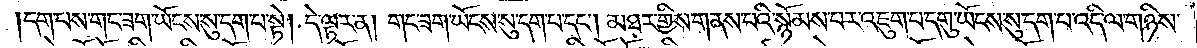དག་པས་གང་ཟག་ཡོངས་སུ་དག་པ་སྟེ། དེ་ལྟར་ན། གང་ཟག་ཡོངས་སུ་དག་པ་དང༌། མཐར་གྱིས་གནས་པའི་སྙོམས་པར་འཇུག་པ་དགུ་ཡོངས་སུ་དག་པ་འདི་ལ་གཉིས་
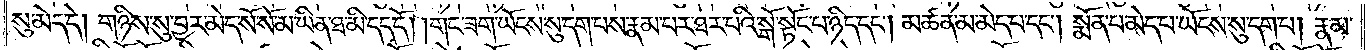སུ་མེད་དེ། གཉིས་སུ་བྱར་མེད་སོ་སོ་མ་ཡིན་ཐ་མི་དད་དོ། །གང་ཟག་ཡོངས་སུ་དག་པས་རྣམ་པར་ཐར་པའི་སྒོ་སྟོང་པ་ཉིད་དང༌། མཚན་མ་མེད་པ་དང༌། སྨོན་པ་མེད་པ་ཡོངས་སུ་དག་པ། རྣམ་
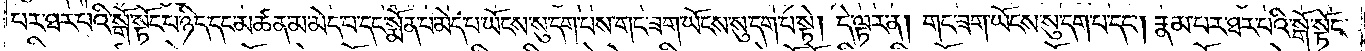པར་ཐར་པའི་སྒོ་སྟོང་པ་ཉིད་དང་མཚན་མ་མེད་པ་དང་སྨོན་པ་མེད་པ་ཡོངས་སུ་དག་པས་གང་ཟག་ཡོངས་སུ་དག་པ་སྟེ། དེ་ལྟར་ན། གང་ཟག་ཡོངས་སུ་དག་པ་དང༌། རྣམ་པར་ཐར་པའི་སྒོ་སྟོང་
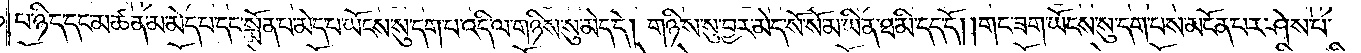པ་ཉིད་དང་མཚན་མ་མེད་པ་དང་སྨོན་པ་མེད་པ་ཡོངས་སུ་དག་པ་འདི་ལ་གཉིས་སུ་མེད་དེ། གཉིས་སུ་བྱར་མེད་སོ་སོ་མ་ཡིན་ཐ་མི་དད་དོ། །གང་ཟག་ཡོངས་སུ་དག་པས་མངོན་པར་ཤེས་པ་
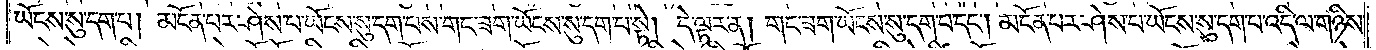ཡོངས་སུ་དག་པ། མངོན་པར་ཤེས་པ་ཡོངས་སུ་དག་པས་གང་ཟག་ཡོངས་སུ་དག་པ་སྟེ། དེ་ལྟར་ན། གང་ཟག་ཡོངས་སུ་དག་པ་དང༌། མངོན་པར་ཤེས་པ་ཡོངས་སུ་དག་པ་འདི་ལ་གཉིས་
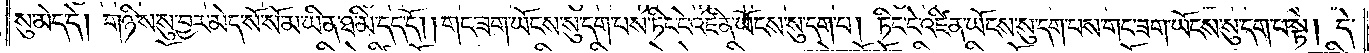སུ་མེད་དེ། གཉིས་སུ་བྱར་མེད་སོ་སོ་མ་ཡིན་ཐ་མི་དད་དོ། །གང་ཟག་ཡོངས་སུ་དག་པས་ཏིང་ངེ་འཛིན་ཡོངས་སུ་དག་པ། ཏིང་ངེ་འཛིན་ཡོངས་སུ་དག་པས་གང་ཟག་ཡོངས་སུ་དག་པ་སྟེ། དེ་
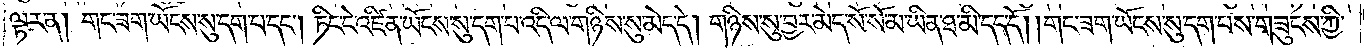ལྟར་ན། གང་ཟག་ཡོངས་སུ་དག་པ་དང༌། ཏིང་ངེ་འཛིན་ཡོངས་སུ་དག་པ་འདི་ལ་གཉིས་སུ་མེད་དེ། གཉིས་སུ་བྱར་མེད་སོ་སོ་མ་ཡིན་ཐ་མི་དད་དོ། །གང་ཟག་ཡོངས་སུ་དག་པས་གཟུངས་ཀྱི་
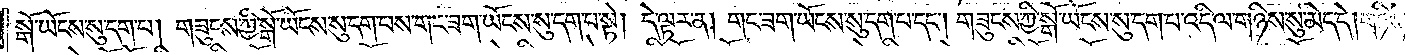སྒོ་ཡོངས་སུ་དག་པ། གཟུངས་ཀྱི་སྒོ་ཡོངས་སུ་དག་པས་གང་ཟག་ཡོངས་སུ་དག་པ་སྟེ། དེ་ལྟར་ན། གང་ཟག་ཡོངས་སུ་དག་པ་དང༌། གཟུངས་ཀྱི་སྒོ་ཡོངས་སུ་དག་པ་འདི་ལ་གཉིས་སུ་མེད་དེ། གཉིས་
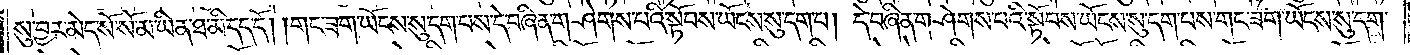སུ་བྱར་མེད་སོ་སོ་མ་ཡིན་ཐ་མི་དད་དོ། །གང་ཟག་ཡོངས་སུ་དག་པས་དེ་བཞིན་གཤེགས་པའི་སྟོབས་ཡོངས་སུ་དག་པ། དེ་བཞིན་གཤེགས་པའི་སྟོབས་ཡོངས་སུ་དག་པས་གང་ཟག་ཡོངས་སུ་དག་
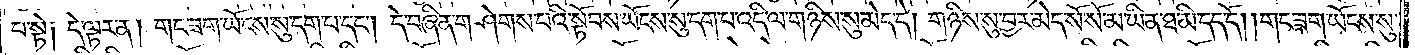པ་སྟེ༑ དེ་ལྟར་ན། གང་ཟག་ཡོངས་སུ་དག་པ་དང༌། དེ་བཞིན་གཤེགས་པའི་སྟོབས་ཡོངས་སུ་དག་པ་འདི་ལ་གཉིས་སུ་མེད་དེ། གཉིས་སུ་བྱར་མེད་སོ་སོ་མ་ཡིན་ཐ་མི་དད་དོ། །གང་ཟག་ཡོངས་སུ་
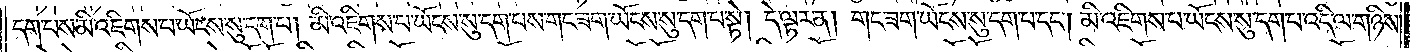དག་པས་མི་འཇིགས་པ་ཡོངས་སུ་དག་པ། མི་འཇིགས་པ་ཡོངས་སུ་དག་པས་གང་ཟག་ཡོངས་སུ་དག་པ་སྟེ། དེ་ལྟར་ན། གང་ཟག་ཡོངས་སུ་དག་པ་དང༌། མི་འཇིགས་པ་ཡོངས་སུ་དག་པ་འདི་ལ་གཉིས་
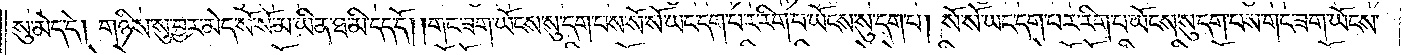སུ་མེད་དེ། གཉིས་སུ་བྱར་མེད་སོ་སོ་མ་ཡིན་ཐ་མི་དད་དོ། །གང་ཟག་ཡོངས་སུ་དག་པས་སོ་སོ་ཡང་དག་པར་རིག་པ་ཡོངས་སུ་དག་པ། སོ་སོ་ཡང་དག་པར་རིག་པ་ཡོངས་སུ་དག་པས་གང་ཟག་ཡོངས་
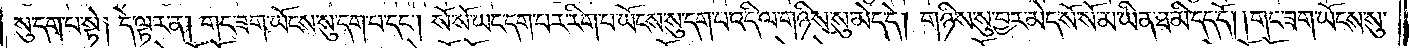སུ་དག་པ་སྟེ། དེ་ལྟར་ན། གང་ཟག་ཡོངས་སུ་དག་པ་དང༌། སོ་སོ་ཡང་དག་པར་རིག་པ་ཡོངས་སུ་དག་པ་འདི་ལ་གཉིས་སུ་མེད་དེ། གཉིས་སུ་བྱར་མེད་སོ་སོ་མ་ཡིན་ཐ་མི་དད་དོ། །གང་ཟག་ཡོངས་སུ་
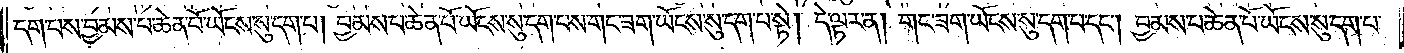དག་པས་བྱམས་པ་ཆེན་པོ་ཡོངས་སུ་དག་པ། བྱམས་པ་ཆེན་པོ་ཡོངས་སུ་དག་པས་གང་ཟག་ཡོངས་སུ་དག་པ་སྟེ། དེ་ལྟར་ན། གང་ཟག་ཡོངས་སུ་དག་པ་དང༌། བྱམས་པ་ཆེན་པོ་ཡོངས་སུ་དག་པ་
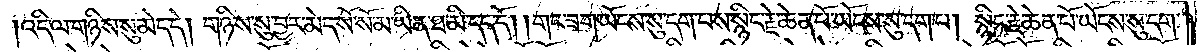འདི་ལ་གཉིས་སུ་མེད་དེ། གཉིས་སུ་བྱར་མེད་སོ་སོ་མ་ཡིན་ཐ་མི་དད་དོ། །གང་ཟག་ཡོངས་སུ་དག་པས་སྙིང་རྗེ་ཆེན་པོ་ཡོངས་སུ་དག་པ། སྙིང་ཆེན་པོ་ཡོངས་སུ་དག་
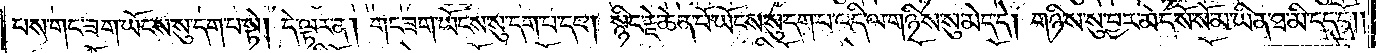པས་གང་ཟག་ཡོངས་སུ་དག་པ་སྟེ། དེ་ལྟར་ན། གང་ཟག་ཡོངས་སུ་དག་པ་དང༌། སྙིང་རྗེ་ཆེན་པོ་ཡོངས་སུ་དག་པ་འདི་ལ་གཉིས་སུ་མེད་དེ། གཉིས་སུ་བྱར་མེད་སོ་སོ་མ་ཡིན་ཐ་མི་དད་དོ། །
